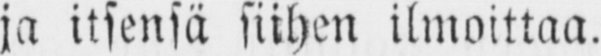ja itsensä siihen ilmoittaa.
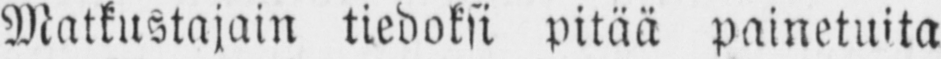Matkustajani tiedoksi pitää painetuita
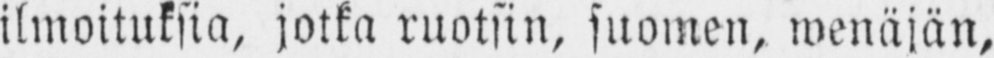ilmoituksia, jotka ruotsin, suomen, wenäjän,
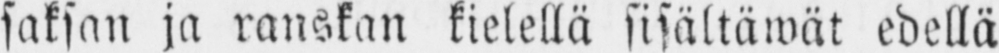saksan ja ranskan kielellä sisältäwät edellä
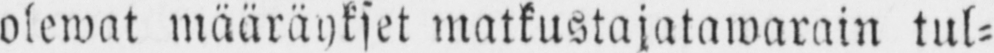olewat määräykset matkustajatawarain tul-
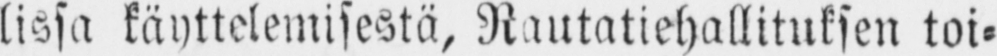lissa käyttelemisestä, Rautatiehallituksen toi-
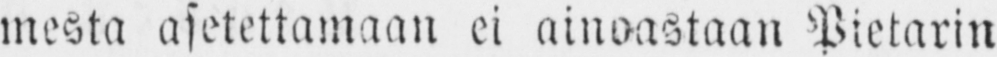mesta asetettamaan ei ainoastaan Pietarin
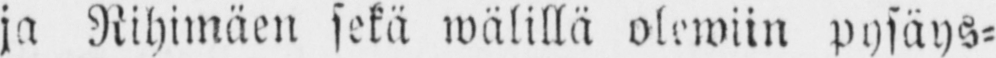ja Rihimäen sekä wälillä olewiin pysäys-
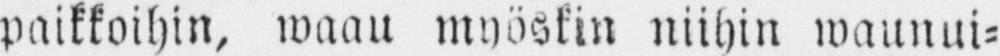paikkoihin, waan myöskin niihin waunui-
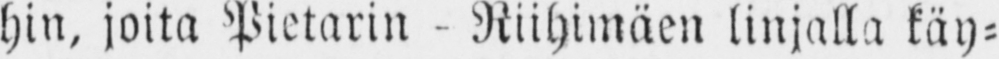hin, joita Pietarin - Riihimäen linjalla käy-
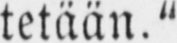tetään."
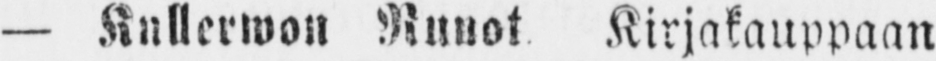— Kullerwon Runot Kirjakauppaan
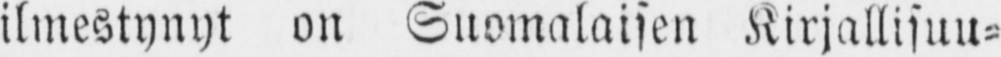ilmestynyt on Suomalaisen Kirjallisuu-
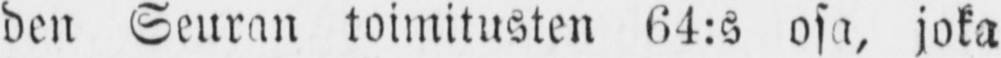den Seuran toimitusten 64:s osa, joka
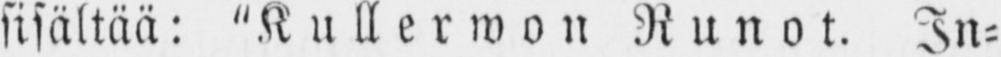sisältää: "Kullerwon Runot. In-
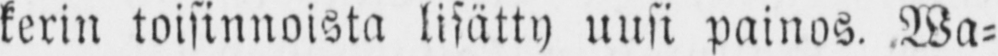kerin toisinnoista lisätty uusi painos. Wa-
